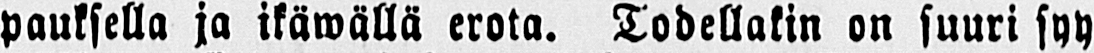pauksella ja ikäwällä erota. Todellakin on suuri syy
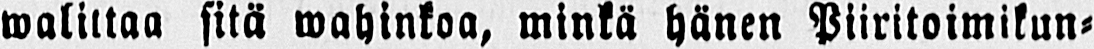walittaa sitä wahinkoa, minkä hänen Piiritoimikun-
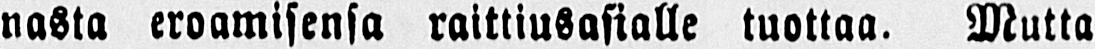nasta eroamisensa raittiusasialle tuottaa. Mutta
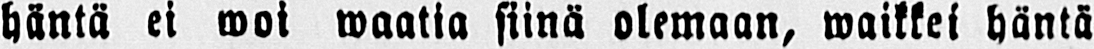häntä et woi waatia siinä olemaan, waikkei häntä
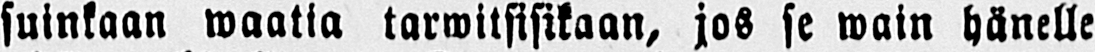suinkaan waatia tarwitsisikaan, jos se wain hänelle
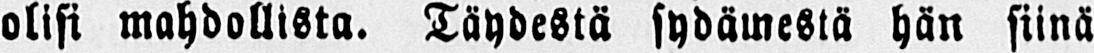olisi mahdollista. Täydestä sydämestä hän siinä
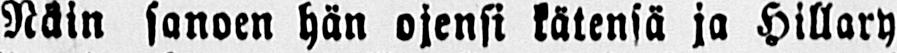Näin sanoen hän ojensi kätensä ja Hillary
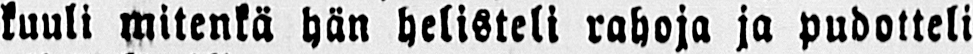kuuli mitenkä hän helisteli rahoja ja pudotteli
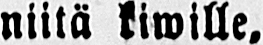niitä kiwille.
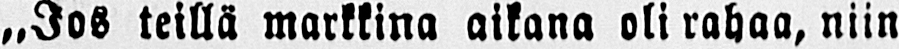„Jos teillä markkina aikana oli rahaa, niin
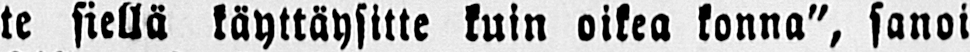te siellä käyttäysitte kuin oikea konna", sanoi
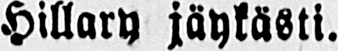Hillary jäykästi.
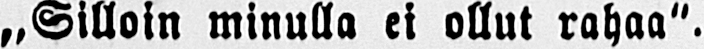˶Silloin minulla ei ollut rahaa".
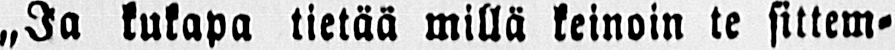„Ja kukapa tietää millä keinoin te sittem-
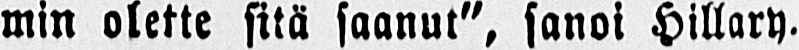min olette sitä saanut", sanoi Hillary.
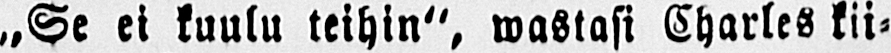„Se ei kuulu teihin", wastasi Charles kii-
